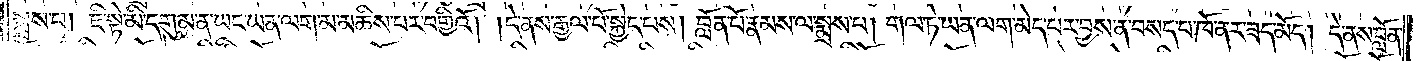སྨྲས་པ། ཇི་སྟེ་མི་དགུམ་ན་ཡང་ཡན་ལག་མ་མཆིས་པར་བགྱིའོ། །དེ་ནས་རྒྱལ་པོ་སྐྱེད་པས། བློན་པོ་རྣམས་ལ་སྨྲས་པ། གལ་ཏེ་ཡན་ལག་མེད་པར་བྱས་ན་བསད་པ་ཁོ་ནར་ཟད་མོད། དེ་ནས་བློན་
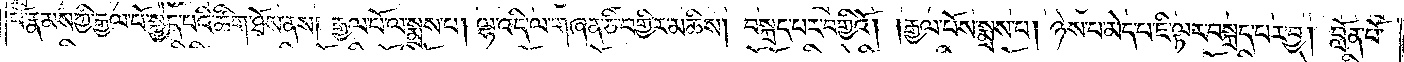པོ་རྣམས་ཀྱི་རྒྱལ་པོ་སྐྱེད་པའི་ཚིག་ཐོས་ནས། རྒྱལ་པོ་ལ་སྨྲས་པ། ལྷ་འདི་ལ་གཞན་ཅི་བགྱིར་མཆིས། བསྐྲད་པར་བགྱིའོ། །རྒྱལ་པོས་སྨྲས་པ། ཉེས་པ་མེད་པ་ཇི་ལྟར་བསྐྲད་པར་བྱ། བློན་པོ་
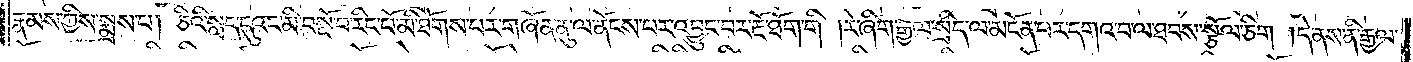རྣམས་ཀྱིས་སྨྲས་པ། ཅིའི་སླད་དུའང་མི་བསྔོ་བ་རིང་པོ་མི་ཐོགས་པར་གཞོན་ནུ་ལ་ནོངས་པར་འབྱུང་བར་རྔོ་ཐོག་གི །རེ་ཞིག་རྒྱལ་སྲིད་ལ་མངོན་པར་དགའ་བ་ལ་ཐབས་སྩོལ་ཅིག །དེ་ནས་ནི་རྒྱལ་
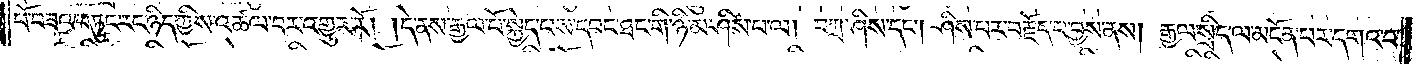པོ་བཟའ་བཏུང་རང་ཉིད་ཀྱིས་འཚལ་བར་འགྱུར་རོ། །དེ་ནས་རྒྱལ་པོ་སྐྱེད་པས་དབང་ཐང་གི་ཉི་མ་ཤིས་པ་ལ། བཀྲ་ཤིས་དང༌། ཤིས་པར་བརྗོད་པ་བྱས་ནས། རྒྱལ་སྲིད་ལ་མངོན་པར་དགའ་བ་
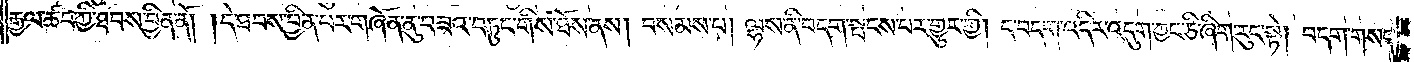རྒྱལ་ཚབ་ཀྱི་ཐབས་བྱིན་ནོ། །དེ་ཐབས་བྱིན་པར་གཞོན་ནུ་བཟའ་བཏུང་གིས་ཐོས་ནས། བསམས་པ། ལྷས་ནི་བདག་སྤངས་པར་གྱུར་གྱི། ད་བདག་འདིར་འདུག་ཀྱང་ཅི་ཞིག་རུང་སྟེ། བདག་གསད་
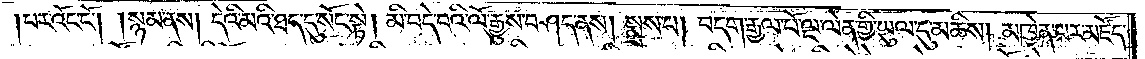པར་འོང་ངོ༌། །སྙམ་ནས། དེའི་མའི་ཐད་དུ་སོང་སྟེ། མི་བདེ་བའི་ལོ་རྒྱུས་བཤད་ནས། སྨྲས་པ། བདག་རྒྱལ་པོ་ལྔ་ལེན་གྱི་ཡུལ་དུ་མཆིས། མཁྱེན་པར་མཛོད་
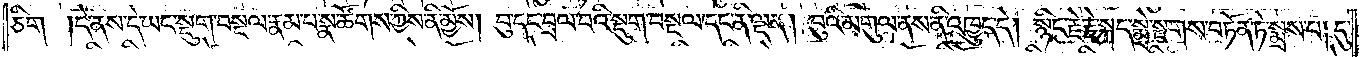ཅིག །དེ་ནས་དེ་ཡང་སྡུག་བསྔལ་རྣམ་པ་སྣ་ཚོགས་ཀྱིས་ནི་མྱོས། བུ་དང་བྲལ་བའི་སྡུག་བསྔལ་དང་ནི་ལྡན། བུའི་མགུལ་ནས་ནི་འཁྱུད་དེ། སྙིང་རྗེ་རྗེ་སྐད་སྨྲེ་སྔགས་བཏོན་ཏེ་སྨྲས་པ། དུ་
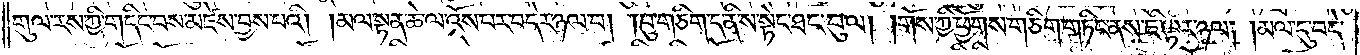གུལ་རས་ཀྱི་གདིང་བས་མཛེས་བྱས་པའི། །མལ་སྟན་ཆེ་ལ་འོས་པར་བདེར་ཉལ་བ། །བུ་གཅིག་ད་ནི་ས་སྟེང་ཐང་བུ་ལ། །གོས་ཀྱི་ཕྱོགས་གཅིག་གཏིང་ནས་ཇི་ལྟར་ཉལ། །མལ་དུ་བདེ་
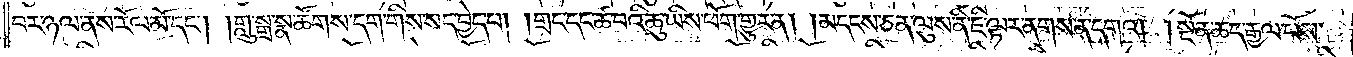བར་ཉལ་ནས་རོལ་མོ་དང༌། །གླུ་སྒྲ་སྣ་ཚོགས་དག་གིས་སད་བྱེད་པ། །གྲང་དང་ཚ་བའི་ཆུ་ཡིས་ཕོག་གྱུར་ན། །མདངས་ཅན་ལུས་ནི་ཇི་ལྟར་ནགས་ན་དགའ། །སྔོན་ཆད་རྒྱལ་པོས་
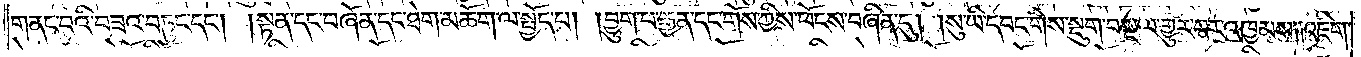གནང་བའི་བཟའ་བཏུང་དང༌། །སྟན་དང་བཞོན་དང་ཐེག་མཆོག་ལ་སྤྱོད་པ། །བྱུག་པ་རྒྱན་དང་གོས་ཀྱིས་ཕོངས་བཞིན་དུ། །སུ་ཡི་དབང་གིས་སྡུག་བསྔལ་གྱུར་པར་འཁྱམས། །འཇིག་
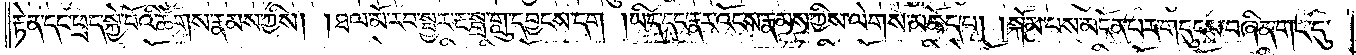རྟེན་དང་ཕྲད་སྐྱེ་བོའི་ཚོགས་རྣམས་ཀྱིས། །ཐལ་མོ་རབ་སྦྱར་རྔ་སྒྲ་གླུ་དབྱངས་དག །ཡིད་དང་རྣར་འོངས་རྣམས་ཀྱིས་ལེགས་མཆོད་པ། །སྐོམ་པས་མངོན་པར་གདུངས་བཞིན་གང་དུ་
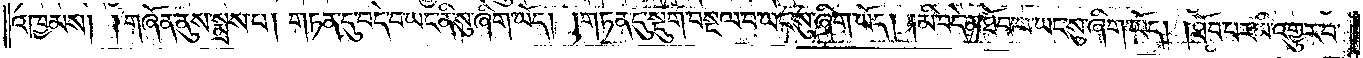འཁྱམས། །གཞོན་ནུས་སྨྲས་པ། གཏན་དུ་བདེ་བ་ཡང་ནི་སུ་ཞིག་ཡོད། །གཏན་དུ་སྡུག་བསྔལ་བ་ཡང་སུ་ཞིག་ཡོད། །མི་བདེ་མ་ཐོབ་པ་ཡང་སུ་ཞིག་ཡོད། །ཐོབ་པར་མི་འགྱུར་བ་
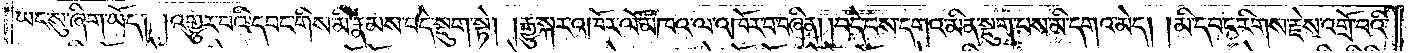ཡང་སུ་ཞིག་ཡོད། །འགྱུར་བའི་དབང་གིས་མི་རྣམས་བདེ་སྡུག་སྟེ། །རྒྱུ་སྐར་འཁོར་ལོ་མཁའ་ལ་འཁོར་བ་བཞིན། །བདེ་བས་དགའ་མིན་སྡུག་པས་མི་དགའ་མེད། །མི་དབང་རིགས་རྗེས་འགྲོ་བའི་
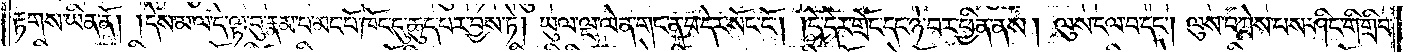རྟགས་ཡིན་ནོ། །དེས་མ་ལ་དེ་ལྟ་བུ་རྣམ་པ་མང་པོ་ཁོང་དུ་ཆུད་པར་བྱས་ཏེ། ཡུལ་ལྔ་ལེན་གང་ན་བ་དེར་སོང་ངོ༌། །དེ་དེར་གྲོང་དང་ཉེ་བར་ཕྱིན་ནས། ལུས་ངལ་བ་དང༌། ལུས་བཀྲེས་པས་ཤིང་གི་གྲིབ་
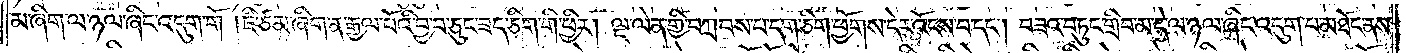མ་ཞིག་ལ་ཉལ་ཞིང་འདུག་གོ །ཇི་ཙམ་ཞིག་ན་རྒྱལ་པོའི་བྱ་བ་ཅུང་ཟད་ཅིག་གི་ཕྱིར། ལྔ་ལེན་གྱི་བཀྲབས་པ་དག་ཅིག་ཕྱོགས་དེར་འོངས་པ་དང༌། བཟའ་བཏུང་གྲིབ་མ་དེ་ལ་ཉལ་ཞིང་འདུག་པ་མཐོང་ནས་
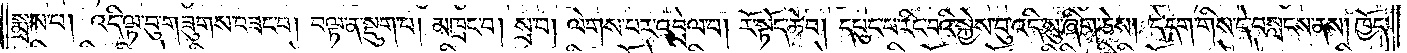སྨྲས་པ། འདི་ལྟ་བུ་གཟུགས་བཟང་བ། བལྟ་ན་སྡུག་པ། མཁྲང་བ། སྲ་བ། ལེགས་པར་འབྲེལ་བ། རོ་སྟོད་ཆེ་བ། དཔུང་པ་རིང་བའི་སྐྱེས་བུ་འདི་སུ་ཞིག་ཅེས། དེ་དག་གིས་དེ་བསླངས་ནས། ཁྱོད་
